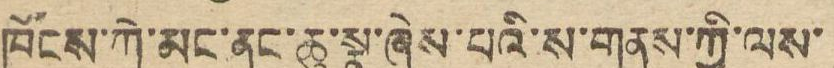ཁོངས་ཀེ་མང་ནང་ཆུ་སྣ་ཞེས་པའི་ས་གནས་ཀྱི་ལས་
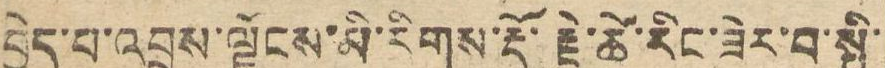བྱེད་པ་འབྲས་ལྗོངས་མི་རིགས་རྡོ་རྗེ་ཚེ་རིང་ཟེར་བ་སྤྱི་
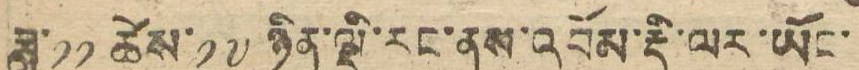ཟླ་༡༡ ཚེས་༡༧ ཉིན་ལྡི་རང་ནས་འབོམ་རྡི་ལར་ཡོང་
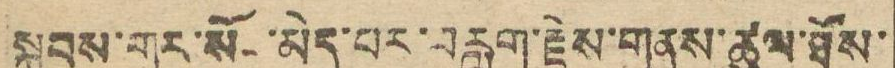སྐབས་གར་སོང་མེད་པར་བརླག་རྗེས་གནས་ཚུལ་ཐོས་
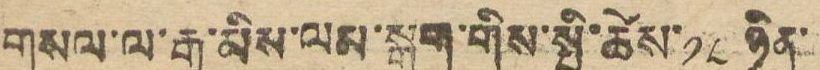གསལ་ལ་རྒྱ་མིས་ལམ་སྒུག་གིས་སྤྱི་ཚེས་ ༡༨ ཉིན་
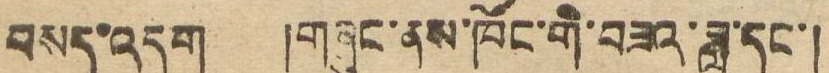བསད་འདུག །གཞུང་ནས་ཁོང་གི་བཟའ་ཟླ་དང་།
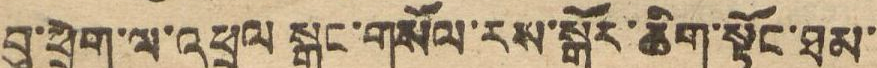བུ་ཕྲུག་ལ་འཕྲལ སྒང་གསོལ་རས་སྒོར་ཆིག་སྟོང་ཐམ་
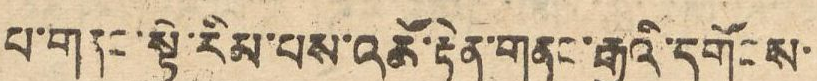པ་གནང་སྟེ་རིམ་པས་འཚོ་རྟེན་གནང་རྒྱུའི་དགོངས་
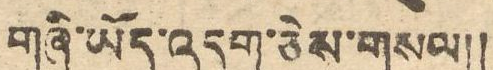གཞི་ཡོད་འདུག་ཅེས་གསལ།།
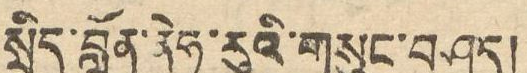སྲིད་བློན་ནེཧ་རུའི་གསུང་བཤད།
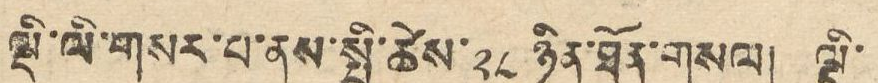ལྡི་ལི་གསར་པ་ནས་སྤྱི་ཚེས་ ༢༨ ཉིན་ཐོན་གསལ། ལྡི་
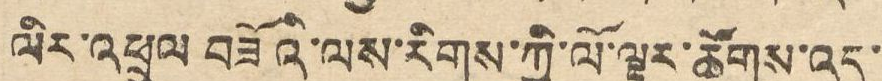ལིར་འཕྲུལ བཟོའི་ལས་རིགས་ཀྱི་ལོ་ལྟར་ཚོགས་འདུ་
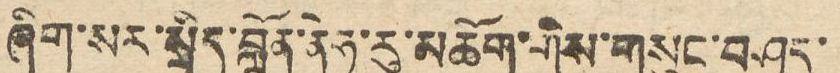ཞིག་སར་སྲིད་བློན་ནེཧ་རུ་མཆོག་གིས་གསུང་བཤད་
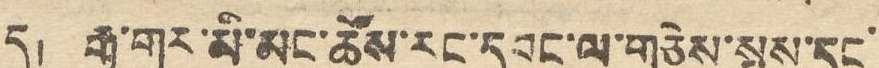དུ། རྒྱ་གར་མི་མང་ཚོས་རང་དབང་ལ་གཅེས་སྤྲས་དང་
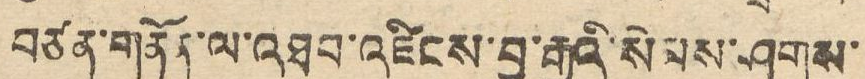བཙན་གནོན་ལ་འཐབ་འཛིངས་བྱ་རྒྱུའི་སེམས་ཤུགས་
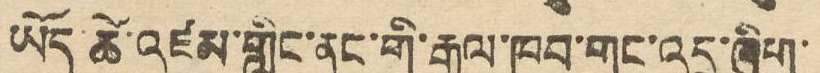ཡོད ཚེ་འཛམ་གླིང་ནང་གི་རྒྱལ་ཁབ་གང་འདྲ་ཞིག་
